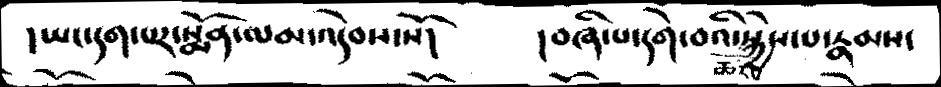།ཡང་དག་པར་སྨོན་ལམ་འདེབས་སོ།     །བཞི་པ་དགེ་བའི་ཚོར་བ་སྐྱེས་པ་རྣམས་
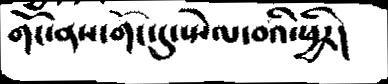གོང་ནས་གོང་དུ་སྤེལ་བའི་ཕྱིར།
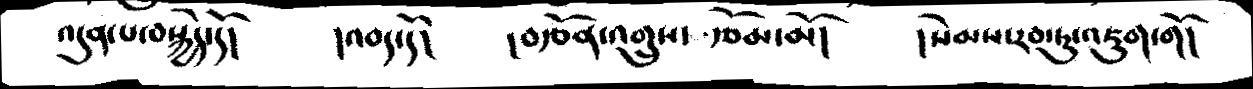འདུན་པ་བསྐྱེད་དོ།     །འབད་དོ།      །བརྩོན་འགྲུས་ རྩོམ་མོ།     །སེམས་རབ་ཏུ་འཇུག་གོ།
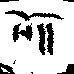སོ།།
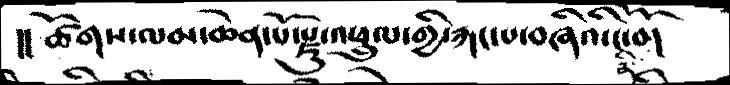།།ཚོགས་ལམ་ཆེན་པོ་རྫུ་འཕྲུལ་གྱི་རྐང་པ་བཞིའི་ངོ་བོ་ནི།
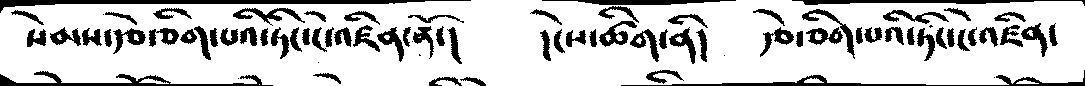སེམས་རྩེ་ཅིག་པའི་ཏིང་ངེ་འཛིན་ནོ་།     །ངེས་ཚིག་ནི།     རྩེ་ཅིག་པའི་ཏིང་ངེ་འཛིན།
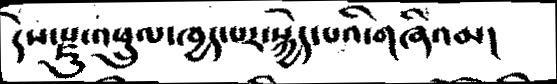དེས་རྫུ་འཕྲུལ་ཁྱད་པར་སྐྱེད་པའི་གཞིའམ།
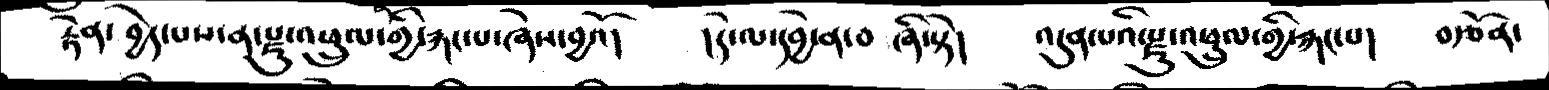རྟེན་ བྱེད་པས་ན་རྫུ་འཕྲུལ་གྱི་རྐང་པ་ཞེས་བྱའོ།     །དེ་ལ་དབྱེ་ན་བ ཞི་སྟེ།    འདུན་པའི་རྫུ་འཕྲུལ་གྱི་རྐང་པ།    བརྩོན་
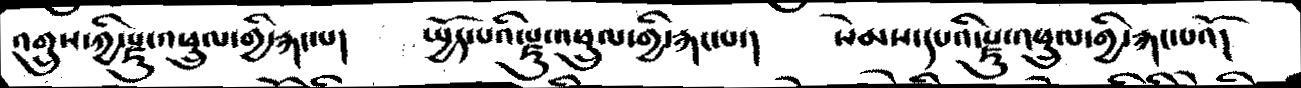འགྲུས་ཀྱི་རྫུ་འཕྲུལ་གྱི་རྐང་པ།    སྤྱོད་པའི་རྫུ་འཕྲུལ་གྱི་རྐང་པ་།     སེམས་དཔའི་རྫུ་འཕྲུལ་གྱི་རྐང་པའོ།
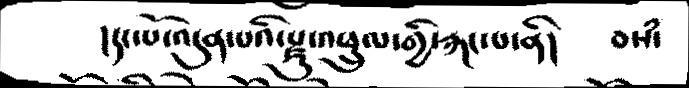།དང་པོ་འདུན་པའི་རྫུ་འཕྲུལ་གྱི་རྐང་པ་ནི།    བསཾ་
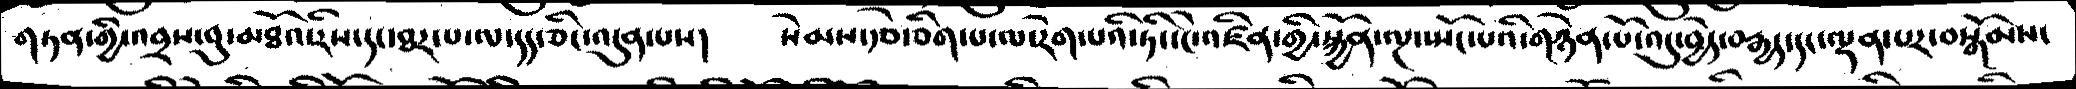གཏན་གྱི་འབྲས་བུ་མཐོའ་རིས་དང་ཐར་པ་ལ་དད་ཅིང་འདུན་པས།   སེམས་རྩེ་ཅིག་པ་ལ་རེག་པའི་ཏིང་ངེ་འཛིན་གྱི་སྐྱོན་ལྔ་སྤོང་པའི་གཉེན་པོ་འདུ་བྱེད་བརྒྱད་དང་ལྡན་པར་བསྒོམས་
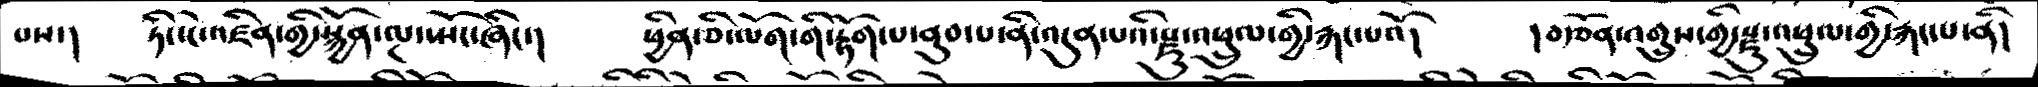པས་།   ཏིང་ངེ་འཛིན་གྱི་སྐྱོན་ལྔ་སྤོང་ཞིང་།   ཕྱིན་ཅི་ལོག་གི་རྟོག་པ་ནུབ་པ་ནི་འདུན་པའི་རྫུ་འཕྲུལ་གྱི་རྐང་པའོ།   །བརྩོན་འགྲུས་གྱི་རྫུ་འཕྲུལ་གྱི་རྐང་པ་ནི།
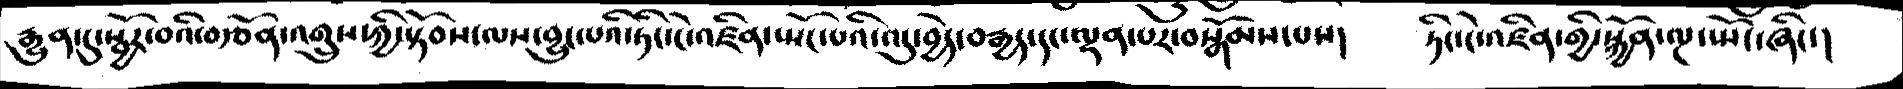རྒྱུན་དུ་སྦྱོར་བའི་བརྩོན་འགྲུས་ཀྱི་སྟོབས་ལས་བྱུང་པའི་ཏིང་ངེ་འཛིན་སྤོང་པའི་འདུ་བྱེད་བརྒྱད་དང་ལྡན་པར་བསྒོམས་པས།   ཏིང་ངེ་འཛིན་གྱི་སྐྱོན་ལྔ་སྤོང་ཞིང་།
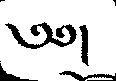༄༅།
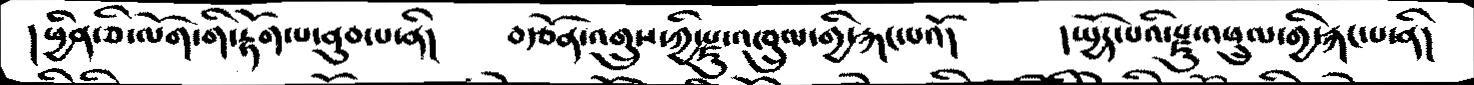།ཕྱིན་ཅི་ལོག་གི་རྟོག་པ་ནུབ་པ་ནི།   བརྩོན་འགྲུས་ཀྱི་རྫུ་འཁྲུལ་གྱི་རྐང་པའོ།   །སྤྱོད་པའི་རྫུ་འཕྲུལ་གྱི་རྐང་པ་ནི།
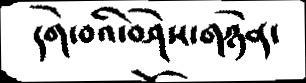དགེ་བའི་བཤེས་གཉེན་
